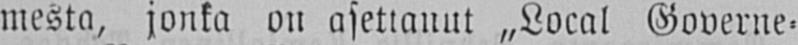mesta, jonka on asettanut „Local Governe-
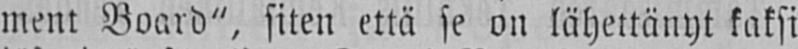ment Board", siten että se on lähettänyt kaksi
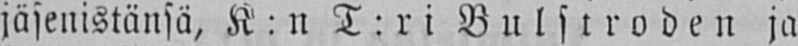jäsenistänsä, K : n T : ri Bulstroden ja
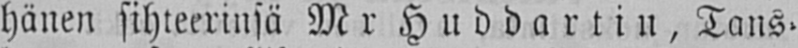hänen sihteerinsä Mr Huddartin, Tans-
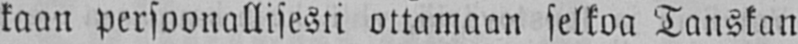kaan persoonallisesti ottamaan selkoa Tanskan
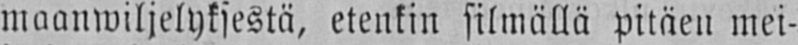maanwiljelyksestä, etenkin silmällä pitäen mei-
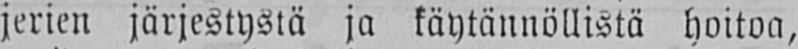jerien järjestystä ja käytännöllistä hoitoa,
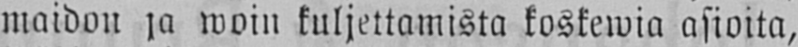maidon ja woin kuljettamista koskewia asioita,
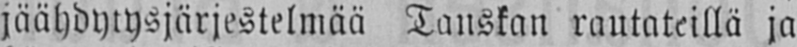jäähdytysjärjestelmää Tanskan rautateillä ja
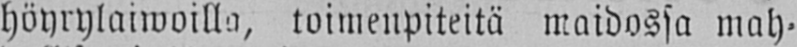höyrylaiwoilla, toimenpiteitä maidossa mah-
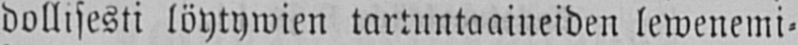dollisesti löytywien tartuntaaineiden lewenemi-
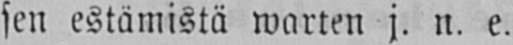sen estämistä warten j. n. e.
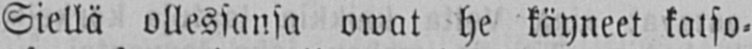Siellä ollessansa owat he käyneet katso-
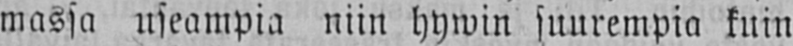massa useampia niin hywin suurempia kuin
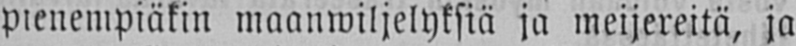pienempiäkin maanwiljelyksiä ja meijereitä, ja
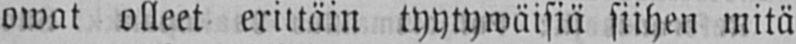owat olleet erittäin tyytywäisiä siihen mitä
